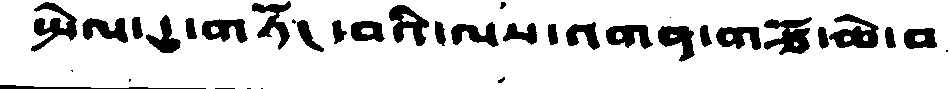སྤེལ་དུ་གཏོང་བའི་ལས་འགན་གཙོ་ཆེ་བ
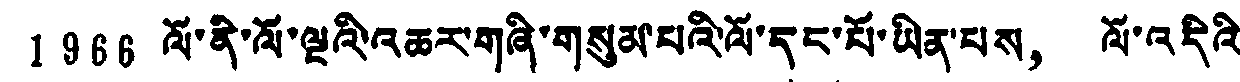1966 ལོ་ནི་ལོ་ལྔའི་འཆར་གཞི་གསུམ་པའི་ལོ་དང་པོ་ཡིན་པས， ལོ་འདིའི
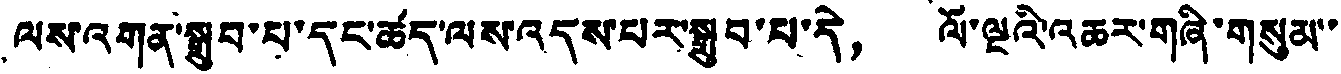ལས་འགན་སྒྲུབ་པ་དང་ཚད་ལས་འདས་པར་སྒྲུབ་པ་དེ， ལོ་ལྔའི་འཆར་གཞི་གསུམ་་
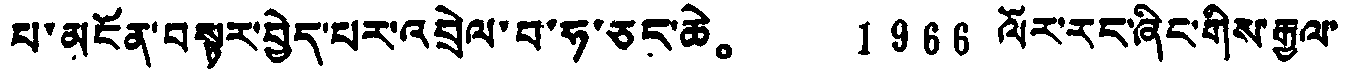པ་མངོན་བསྟར་བྱེད་པར་འབྲེལ་བ་ཧ་ཅང་ཆེ。 1966 ལོར་རང་ཞིང་གིས་རྒྱལ་
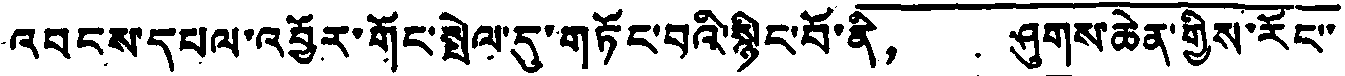འབངས་དཔལ་འབྱོར་གོང་སྤེལ་དུ་གཏོང་བའི་སྙིང་པོ་ནི， ཤུགས་ཆེན་གྱིས་རོང་་
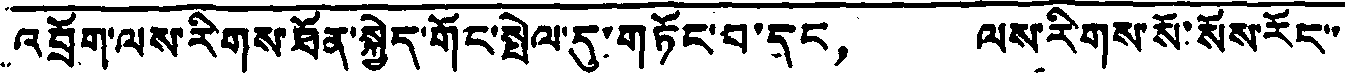འབྲོག་ལས་རིགས་ཐོན་སྐྱེད་གོར་སྤེལ་དུ་གཏོང་བ་དང， ལས་རིགས་སོ་སོས་རོང་་
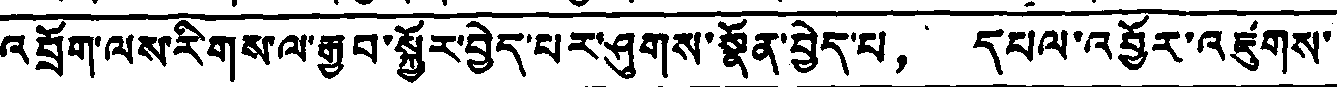འབྲོག་ལས་རིགས་ལ་རྒྱབ་སྐྱོར་བྱེད་པར་ཤུགས་སྣོན་བྱེད་པ， དཔལ་འབྱོར་འཛུགས་
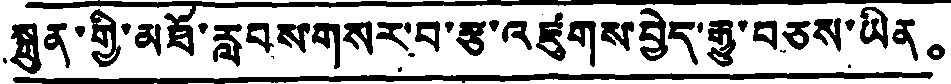སྐྲུན་གྱི་མཐོ་རླབས་གསར་བ་རྩ་འཛུགས་བྱེད་རྒྱུ་བཅས་ཡིན。
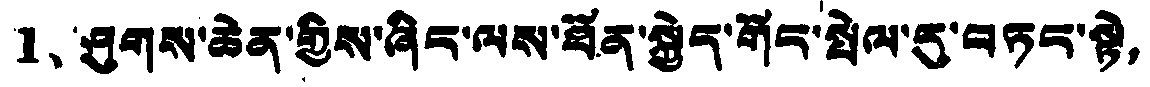1、ཤུགས་ཆེན་གྱིས་ཞིང་ལས་ཐོན་སྐྱེད་གོད་སྤེལ་རུ་བཏང་སྟེ，
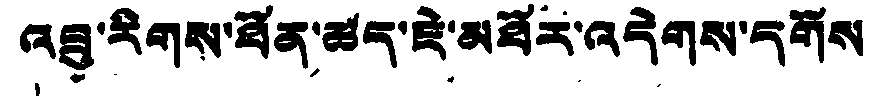འབྲུ་རིགས་ཕོན་ཚད་ཇེ་མཐོར་འདེགས་དགོས
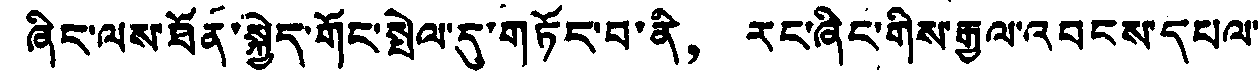ཞིང་ལས་ཐོན་སྐྱེད་གོང་སྤེལ་དུ་གཏོང་བ་ནི， རང་ཞིང་གིས་རྒྱལ་འབངས་དཔལ་
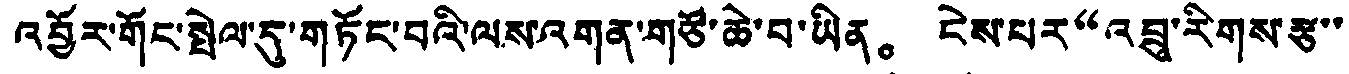འབྱོར་གོང་སྤེལ་དུ་གཏོང་བའི་ལས་འགན་གཙོ་ཆེ་བ་ཡིན。 ངེས་པར“འབྲུ་རིགས་རྩ་་
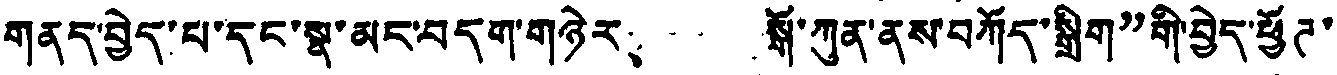གནད་བྱེད་པ་དང་སྣ་མང་བདག་གཉེར、 སྒོ་ཀུན་ནས་བཀོད་སྒྲིག་གི་བྱེད་ཕྱོཊ་
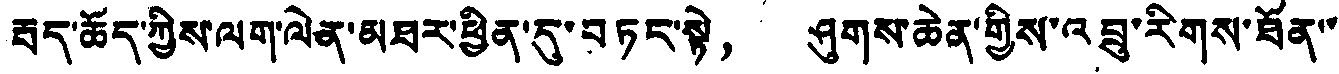རྦད་ཆོད་ཀྱིས་ལག་ལེན་མཐར་ཕྱིན་དུ་བཏང་སྟེ， ཤུགས་ཆེན་གྱིས་འབྲུ་རིགས་ཐོན་་
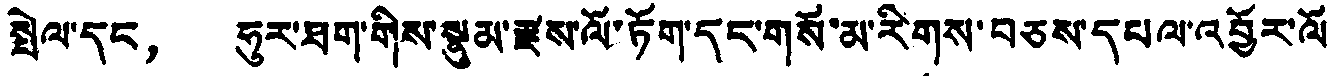སྤེལ་དང， ཧུར་ཐག་གིས་སྣུམ་རྫས་ལོ་ཏོག་དང་གསོ་མ་རིགས་བཅས་དཔལ་འབྱོར་ལོ
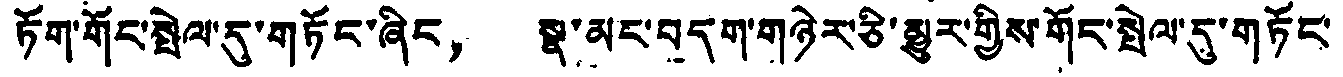ཏོག་གོང་སྤེལ་དུ་གཏོང་ཞིང， སྣ་མང་བདག་གཉེར་ཅི་མྱུར་གྱིས་གོང་སྤེལ་དུ་གཏོང་
